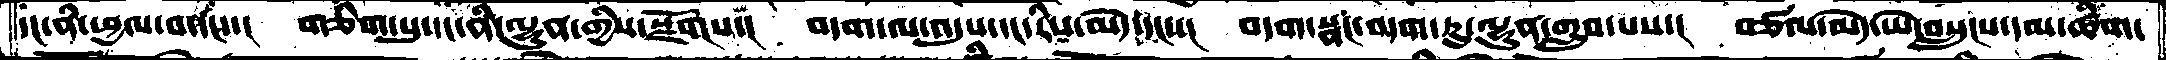དང་ནི་ཕྱལ་བ་དང་་།  གཅིག་སུ་དང་ནི་ལྷུན་གྱིས་སྫོགས་།  བདག་ལ་འདུས་དང་རིས་མེད་དངས་།  བདག་སྣང་བདག་ཏུ་ལྷུན་གྲུབ་པས་།  བཙལ་མེད་ཡེ་བསྲུངས་དམ་ཚིག་
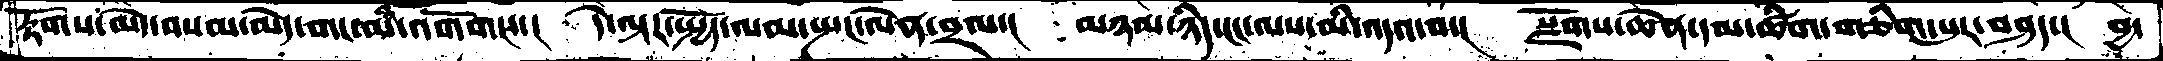རྟོགས་མེད་བསམ་མེད་གང་མི་འགོགས་།  དེ་ལྟར་སྤྱོད་ལམ་སྤང་ལེན་བྲལ་།   མཉམ་ཉིད་ངང་ལས་མི་འདའ་བ་།  སྫོགས་ཆེན་དམ་ཚིག་གཅིག་པུར་བཤད་།  བྱ་
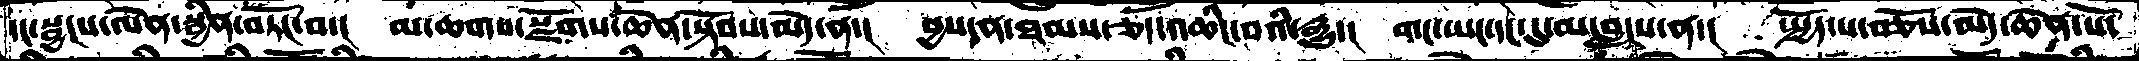དང་སྦྱངས་ལེན་སྦྱིན་བཏོང་བ་།  མ་ཆགས་སྫོགས་ཆེན་སྟོབས་མེད་ན་།  བྱས་ན་ཐམས་ཅད་འཆིང་བའི་རྒྱུ་།  གང་ཡང་དང་དུ་མ་བླངས་ན་།  སྤྱོད་པ་བཅོས་མེད་ཆེན་པོ་
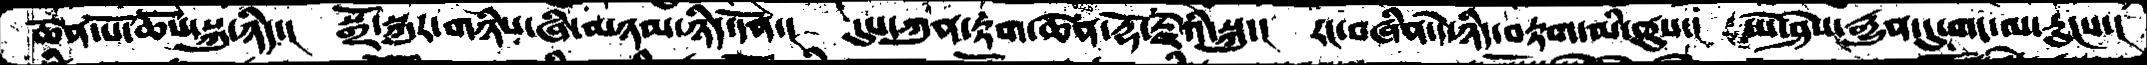ཆེན་པོ་ཆོས་སྐུ་ཉིད་།  སྒྲོ་སྐུར་གཉིས་ཞི་མཉམ་ཉིད་དོན་།  དུས་ཀུན་རྟག་ཆེན་རྡོ་རྗེའི་སྐུ་།  རང་བཞིན་དེ་ཉིད་བརྟག་མི་ནུས་།  ཡེ་ཤེས་རྒྱུན་དུ་གང་ལ་རུངས་།
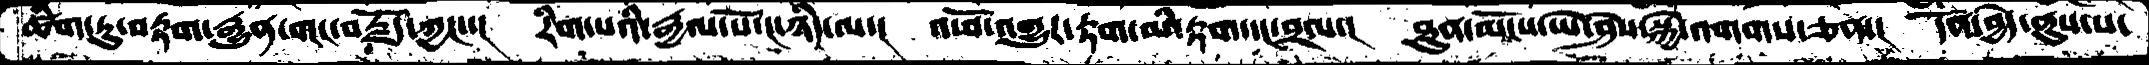ཚིག་ཏུ་བརྟག་རྒྱུན་གང་བརྗོད་ཀྱང་་།  རིག་པའི་རྒྱལ་པོ་ང་ཉིད་ལ་།  འཕོ་འགྱུར་རྟག་མི་རྟག་དང་བྲལ་།  ཐུན་མོངས་ཡེ་ཤེས་སྐྱེ་འགགས་ཅན་།  དོན་བྱེད་ནུས་པ་
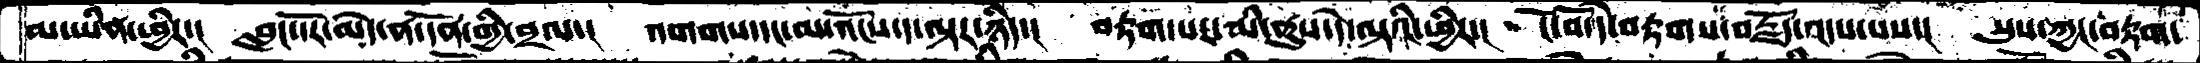མ་ཡིན་ཕྱིར་།  བླང་དོར་མེད་ན་དོན་གྱི་བྲལ་།  འགགས་དང་མ་འོངས་ད་ལྟར་ཉིད་།  བརྟག་པར་མི་ནུས་དེ་ལྟའི་ཕྱིར་།  ངོ་བོ་དེ་བརྟགས་བརྗོད་འདས་པས་།  སུས་ཀྱང་བརྟག་
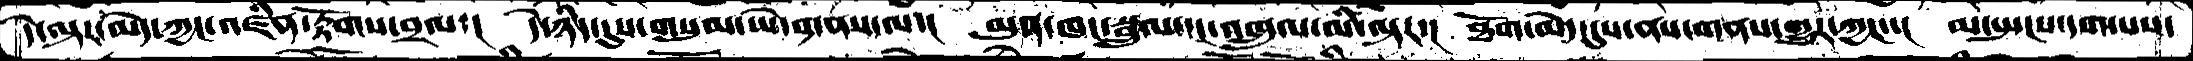དེ་ལྟར་མེད་ཀྱང་འཛིན་རྟོགས་བྲལ་།  དེ་ཉིད་དུས་གསུམ་ཡེ་གནས་ལ་།  མུན་ཁང་སྦྲུལ་དང་འཁྲུལ་མི་ལྟར་།  ཐོག་མེད་དུས་ནས་གནས་གྱུར་ཀྱང་་།  མ་སྤངས་དག་པས་
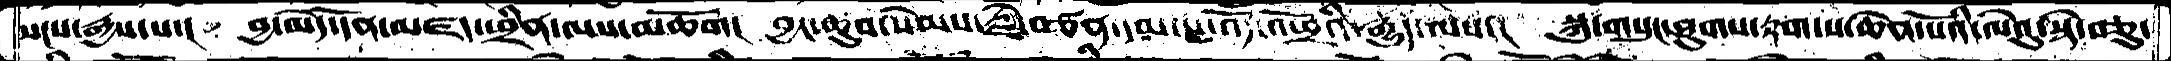སངས་རྒྱས་པ་།  བྱ་མེད་དོན་མཛད་ཕྲིན་ལས་མཆོག།  བྱང་ཆུབ་སེམས་རྗེ་བཙན་དམ་པ་འོད་འཕྲོའི་རྒྱུད་ལས་།  སྐུ་གསུང་ཐུགས་རྟག་པ་ཆེན་པོའི་ལེའུ་སྟེ་བཅུ་
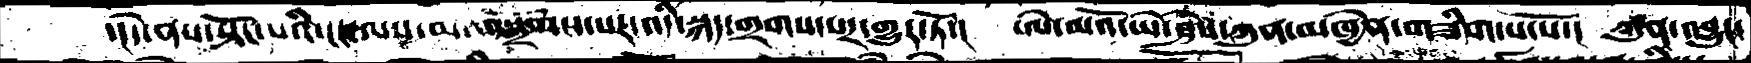་།དེ་ནས་སྟོང་པའི་ངང་ལས་མ་འགྲོགས་པར་འདི་སྐད་གྲགས་པར་གྱུར་ཏེ་།  ཨེ་མའོ་ཡེ་ཤེས་ཀུན་མཁྱེན་གཟིགས་པ་སོ་།  ཀུན་འབྱུང་
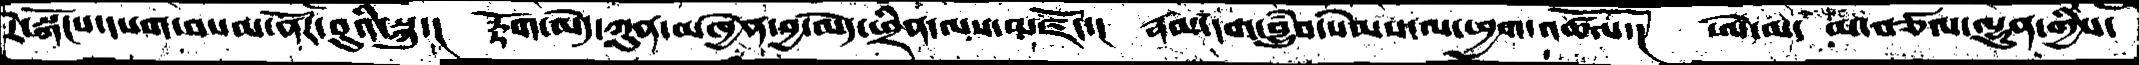རེ་སྐོངས་དཔག་བསམ་ནོར་བུའི་སྐུ་།  རྟོག་མེད་ཀུན་མཁྱེན་བྱ་མེད་ཕྲིན་ལས་མཛོད་།  རྣམ་དག་བྱུབཾ་སེམས་ལ་ཕྱལ་འཚལོ་།  ཨེ་མ་མ་བཙལ་ལྷུན་གྱིས་
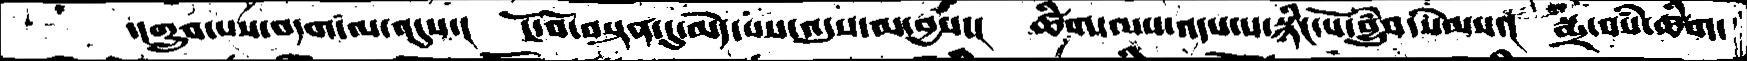་།གྲུབ་པས་བདག་ལ་འདུས་།  ངོ་བོ་བསྟན་དུ་མེད་པས་འདུས་མ་བྱས་།  ཚིག་ལས་འདས་པ་སྙིང་པོ་བྱུཾབ་སེམས་།  སྨྲ་བསཾ་ཚིག་
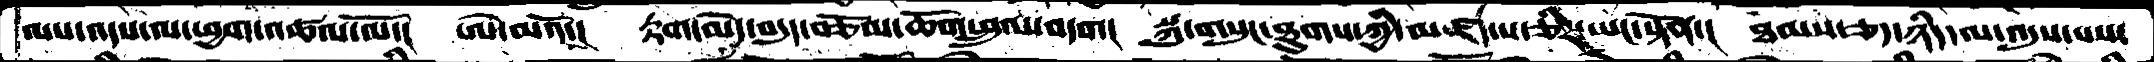ལས་འདས་ལ་ཕྱག་འཚལ་ལོ་།  ཨེ་མའོ་།  རྟག་མེད་བདུད་བཅོམ་ཆོས་ཕྲུལ་བདག།  སྐུ་གསུང་ཐུགས་ཀྱི་མཛད་པ་ཅིར་ཡང་སྟོན་།  ཐམས་ཅད་ཉིད་ལ་འདུས་པས་
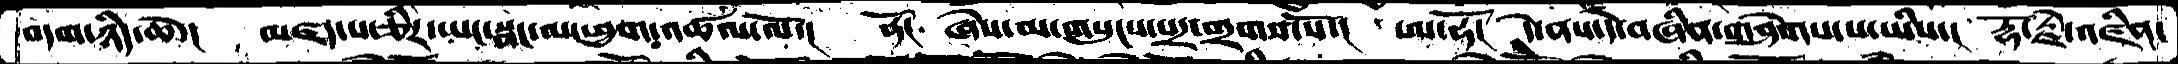བདག་ཉིད་ཆེ་།  མཛད་པ་ཅིར་ཡང་སྣང་ལ་ཕྱག་འཚལ་ལོ་།  ནོང་  ཞེས་མ་གསུངས་པར་གྲགས་སོ་།  ཨ་ཧོ།  དེ་ནས་དེ་བཞིན་གཤེགས་པ་ཡིས་།  རྡོ་རྗེ་འཛིན་
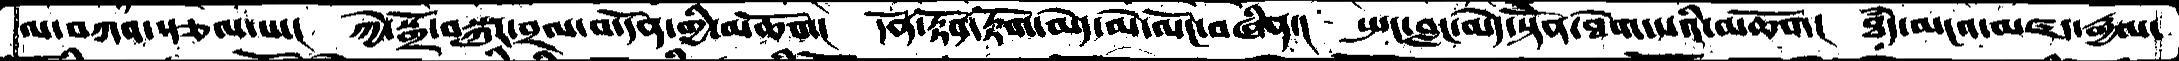ལ་བཀའ་སྩལ་པ་།  ཀྱེ་སྒྲོ་བསྐུར་བྲལ་བ་དོན་གྱི་མཆོག།  དོན་རྟོག་རྟོག་མེད་མེ་ལོང་བཞིན་།  སྤང་བླང་མེད་སྟོན་ཐེག་པའི་མཆོག།  ཐཾད་མངའ་མཛད་རྒྱལ་
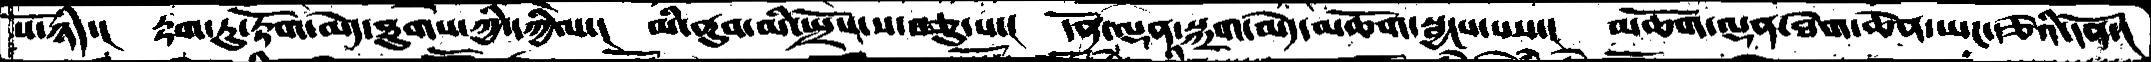པོ་ཉིད་།  རྟག་ཏུ་རྟོག་མེད་ཐུགས་ཀྱི་དཀྱིལ་།  མི་ནུབ་མི་སྤྲོས་ས་བཅུ་པ་།  དོན་ལྡན་སྐྲག་མེད་མཆོག་སྦྱངས་པས་།  མཆོག་ལྡན་ཐེག་ཆེན་ཡང་རྩེའི་དོན་།
